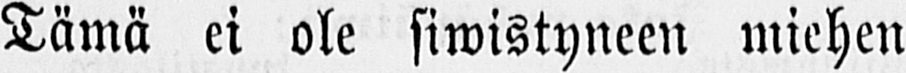Tämä ei ole siwistyneen miehen
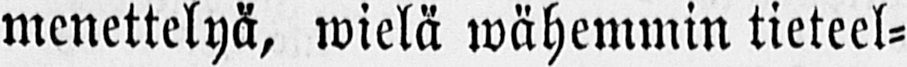menettelyä, wielä wähemmin tieteel-
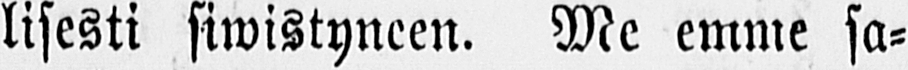lisesti siwistyneen. Me emme sa-
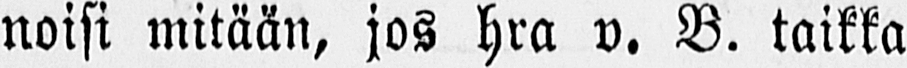noisi mitään, jos hra v. B. taikka
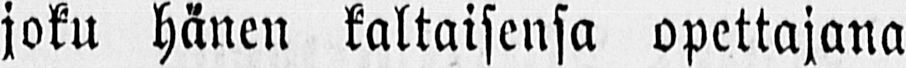joku hänen kaltaisensa opettajana
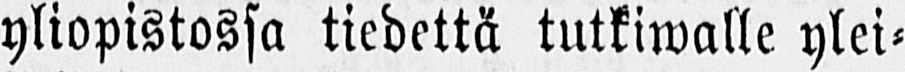yliopistossa tiedettä tutkiwalle ylei-
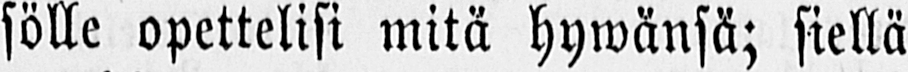sölle opettelisi mitä hywänsä; siellä
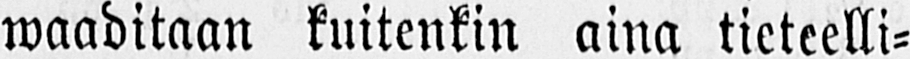waaditaan kuitenkin aina tieteelli-
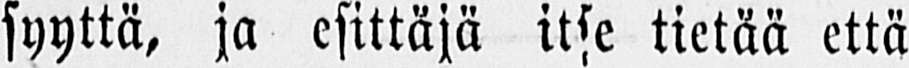syyttä, ja esittäjä itse tietää että
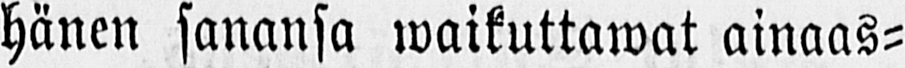hänen sanansa waikuttawat ainaas-
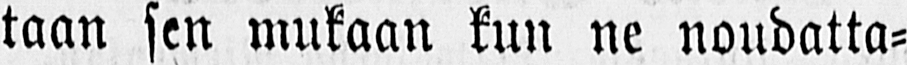taan sen mukaan kun ne noudatta-
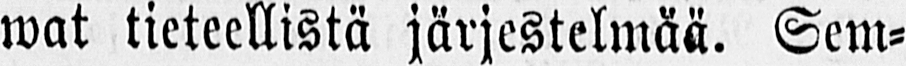wat tieteellistä järjestelmää. Sem-
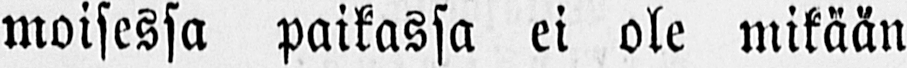moisessa paikassa ei ole mikään
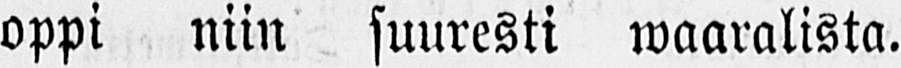oppi niin suuresti waaralista.
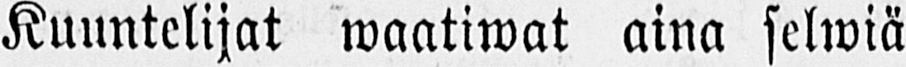Kuuntelijat waatiwat aina selwiä
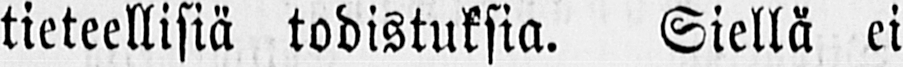tieteellisiä todistuksia. Siellä ei
